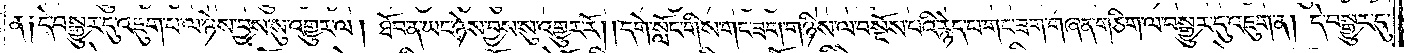ན། དེ་བསྒྱུར་དུ་འཇུག་པ་ལ་ཉེས་བྱས་སུ་འགྱུར་ལ། ཐོབ་ན་ཡང་ཉེས་བྱས་སུ་འགྱུར་རོ། །དགེ་སློང་གིས་གང་ཟག་གཉིས་ལ་བསྔོས་པའི་རྙེད་པ་གང་ཟག་གཞན་གཅིག་ལ་བསྒྱུར་དུ་འཇུག་ན། དེ་བསྒྱུར་དུ་
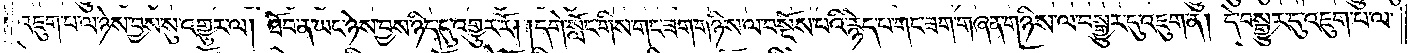འཇུག་པ་ལ་ཉེས་བྱས་སུ་འགྱུར་ལ། ཐོབ་ན་ཡང་ཉེས་བྱས་ཉིད་དུ་འགྱུར་རོ། །དགེ་སློང་གིས་གང་ཟག་གཉིས་ལ་བསྔོས་པའི་རྙེད་པ་གང་ཟག་གཞན་གཉིས་ལ་བསྒྱུར་དུ་འཇུག་ན། དེ་བསྒྱུར་དུ་འཇུག་པ་ལ་
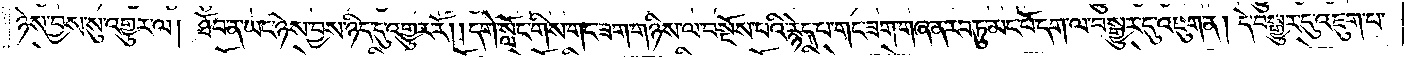ཉེས་བྱས་སུ་འགྱུར་ལ། ཐོབ་ན་ཡང་ཉེས་བྱས་ཉིད་དུ་འགྱུར་རོ། །དགེ་སློང་གིས་གང་ཟག་གཉིས་ལ་བསྔོས་པའི་རྙེད་པ་གང་ཟག་གཞན་རབ་ཏུ་མང་པོ་དག་ལ་བསྒྱུར་དུ་འཇུག་ན། དེ་བསྒྱུར་དུ་འཇུག་པ་
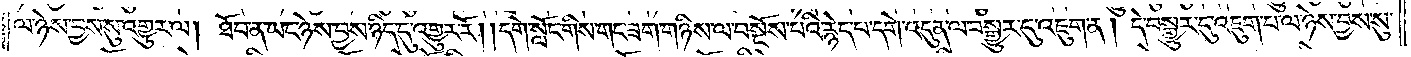ལ་ཉེས་བྱས་སུ་འགྱུར་ལ། ཐོབ་ན་ཡང་ཉེས་བྱས་ཉིད་དུ་འགྱུར་རོ། །དགེ་སློང་གིས་གང་ཟག་གཉིས་ལ་བསྔོས་པའི་རྙེད་པ་དགེ་འདུན་ལ་བསྒྱུར་དུ་འཇུག་ན། དེ་བསྒྱུར་དུ་འཇུག་པ་ལ་ཉེས་བྱས་སུ་
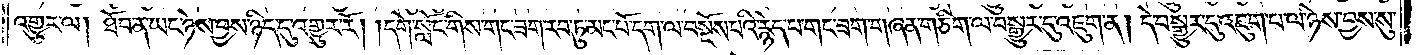འགྱུར་ལ། ཐོབ་ན་ཡང་ཉེས་བྱས་ཉིད་དུ་འགྱུར་རོ། །དགེ་སློང་གིས་གང་ཟག་རབ་ཏུ་མང་པོ་དག་ལ་བསྔོས་པའི་རྙེད་པ་གང་ཟག་གཞན་གཅིག་ལ་བསྒྱུར་དུ་འཇུག་ན། དེ་བསྒྱུར་དུ་འཇུག་པ་ལ་ཉེས་བྱས་སུ་
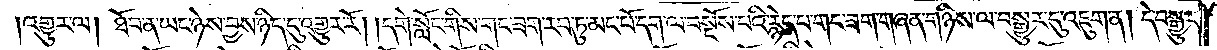འགྱུར་ལ། ཐོབ་ན་ཡང་ཉེས་བྱས་ཉིད་དུ་འགྱུར་རོ། །དགེ་སློང་གིས་གང་ཟག་རབ་ཏུ་མང་པོ་དག་ལ་བསྔོས་པའི་རྙེད་པ་གང་ཟག་གཞན་གཉིས་ལ་བསྒྱུར་དུ་འཇུག་ན། དེ་བསྒྱུར་
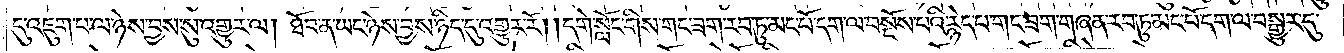དུ་འཇུག་པ་ལ་ཉེས་བྱས་སུ་འགྱུར་ལ། ཐོབ་ན་ཡང་ཉེས་བྱས་ཉིད་དུ་འགྱུར་རོ། །དགེ་སློང་གིས་གང་ཟག་རབ་ཏུ་མང་པོ་དག་ལ་བསྔོས་པའི་རྙེད་པ་གང་ཟག་གཞན་རབ་ཏུ་མང་པོ་དག་ལ་བསྒྱུར་དུ་
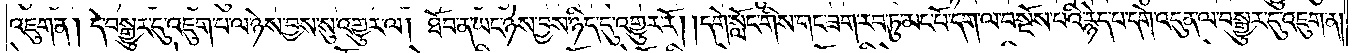འཇུག་ན། དེ་བསྒྱུར་དུ་འཇུག་པ་ལ་ཉེས་བྱས་སུ་འགྱུར་ལ། ཐོབ་ན་ཡང་ཉེས་བྱས་ཉིད་དུ་འགྱུར་རོ། །དགེ་སློང་གིས་གང་ཟག་རབ་ཏུ་མང་པོ་དག་ལ་བསྔོས་པའི་རྙེད་པ་དགེ་འདུན་ལ་བསྒྱུར་དུ་འཇུག་ན།
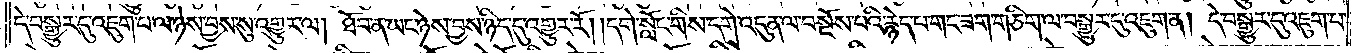དེ་བསྒྱུར་དུ་འཇུག་པ་ལ་ཉེས་བྱས་སུ་འགྱུར་ལ། ཐོབ་ན་ཡང་ཉེས་བྱས་ཉིད་དུ་འགྱུར་རོ། །དགེ་སློང་གིས་དགེ་འདུན་ལ་བསྔོས་པའི་རྙེད་པ་གང་ཟག་གཅིག་ལ་བསྒྱུར་དུ་འཇུག་ན། དེ་བསྒྱུར་དུ་འཇུག་པ་
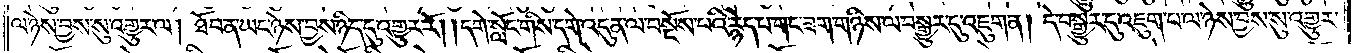ལ་ཉེས་བྱས་སུ་འགྱུར་ལ། ཐོབ་ན་ཡང་ཉེས་བྱས་ཉིད་དུ་འགྱུར་རོ། །དགེ་སློང་གིས་དགེ་འདུན་ལ་བསྔོས་པའི་རྙེད་པ་གང་ཟག་གཉིས་ལ་བསྒྱུར་དུ་འཇུག་ན། དེ་བསྒྱུར་དུ་འཇུག་པ་ལ་ཉེས་བྱས་སུ་འགྱུར་
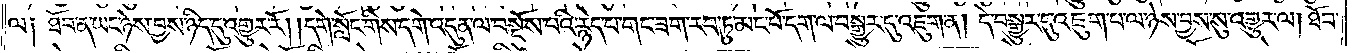ལ༑ ཐོབ་ན་ཡང་ཉེས་བྱས་ཉིད་དུ་འགྱུར་རོ། །དགེ་སློང་གིས་དགེ་འདུན་ལ་བསྔོས་པའི་རྙེད་པ་གང་ཟག་རབ་ཏུ་མང་པོ་དག་ལ་བསྒྱུར་དུ་འཇུག་ན། དེ་བསྒྱུར་དུ་འཇུག་པ་ལ་ཉེས་བྱས་སུ་འགྱུར་ལ། ཐོབ་
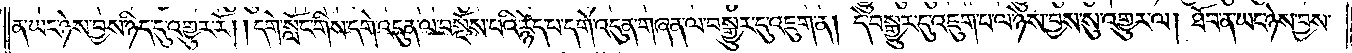ན་ཡང་ཉེས་བྱས་ཉིད་དུ་འགྱུར་རོ། །དགེ་སློང་གིས་དགེ་འདུན་ལ་བསྔོས་པའི་རྙེད་པ་དགེ་འདུན་གཞན་ལ་བསྒྱུར་དུ་འཇུག་ན། དེ་བསྒྱུར་དུ་འཇུག་པ་ལ་ཉེས་བྱས་སུ་འགྱུར་ལ། ཐོབ་ན་ཡང་ཉེས་བྱས་
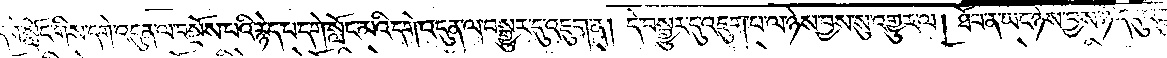ཉིད་དུ་འགྱུར་རོ། །དགེ་སློང་གིས་དགེ་འདུན་ལ་བསྔོས་པའི་རྙེད་པ་དགེ་སློང་མའི་དགེ་འདུན་ལ་བསྒྱུར་དུ་འཇུག་ན། དེ་བསྒྱུར་དུ་འཇུག་པ་ལ་ཉེས་བྱས་སུ་འགྱུར་ལ། ཐོབ་ན་ཡང་ཉེས་བྱས་ཉིད་དུ་འགྱུར་རོ། །
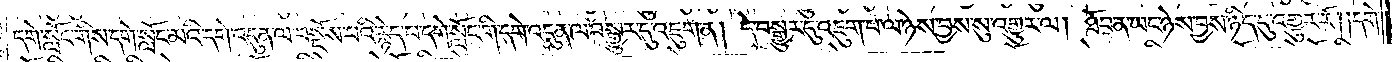དགེ་སློང་གིས་དགེ་སློང་མའི་དགེ་འདུན་ལ་བསྔོས་པའི་རྙེད་པ་དགེ་སློང་གི་དགེ་འདུན་ལ་བསྒྱུར་དུ་འཇུག་ན། དེ་བསྒྱུར་དུ་འཇུག་པ་ལ་ཉེས་བྱས་སུ་འགྱུར་ལ། ཐོབ་ན་ཡང་ཉེས་བྱས་ཉིད་དུ་འགྱུར་རོ། །དགེ་
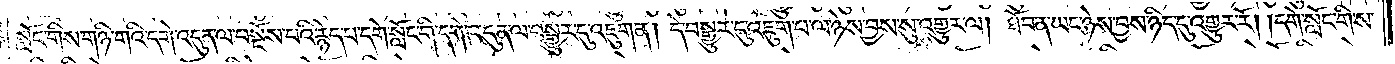སློང་གིས་གཉི་གའི་དགེ་འདུན་ལ་བསྔོས་པའི་རྙེད་པ་དགེ་སློང་གི་དགེ་འདུན་ལ་བསྒྱུར་དུ་འཇུག་ན། དེ་བསྒྱུར་དུ་འཇུག་པ་ལ་ཉེས་བྱས་སུ་འགྱུར་ལ། ཐོབ་ན་ཡང་ཉེས་བྱས་ཉིད་དུ་འགྱུར་རོ། །དགེ་སློང་གིས་
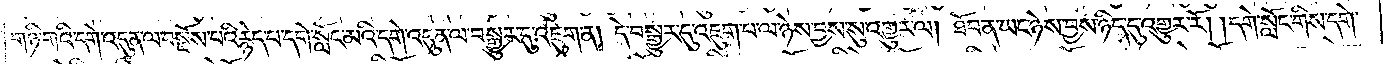གཉི་གའི་དགེ་འདུན་ལ་བསྔོས་པའི་རྙེད་པ་དགེ་སློང་མའི་དགེ་འདུན་ལ་བསྒྱུར་དུ་འཇུག་ན། དེ་བསྒྱུར་དུ་འཇུག་པ་ལ་ཉེས་བྱས་སུ་འགྱུར་ལ། ཐོབ་ན་ཡང་ཉེས་བྱས་ཉིད་དུ་འགྱུར་རོ། །དགེ་སློང་གིས་དགེ་
